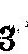3
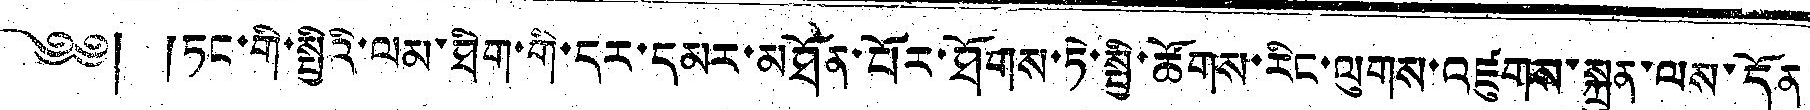༄༅། །ཏང་གི་སྤྱིའི་ལམ་ཐིག་གི་དར་དམར་མཐོན་པོར་ཐོགས་ཏེ་སྤྱི་ཚོགས་རིང་ལུགས་འཛུགས་སྐྲུན་ལས་དོན
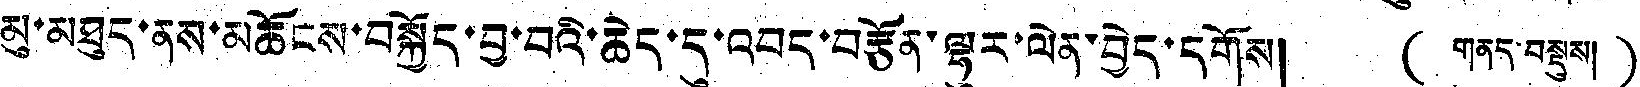མུ་མཐུད་ནས་མཆོངས་བསྐྱོད་བྱ་བའི་ཆེད་དུ་འབད་བརྩོན་ལྷུར་ལེན་བྱེད་དགོས། ( གནད་བསྡུས། )
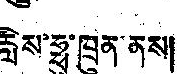རླིས་ཧྥུ་ཁྲུན་ནས།
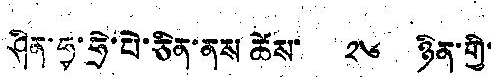ཤིན་ཧྭ་ཧྲེ་པེ་ཅིན་ནས ཚེས་ ༢༦ ཉིན་གྱི་
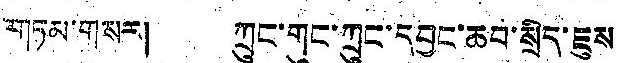གཏམ་གསར། ཀྲུང་གུང་ཀྲུང་དབྱང་ཆབ་སྲིད་ཇུས
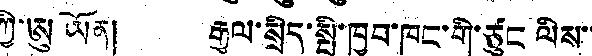ཀྱི་ཨུ ཡོན། རྒྱལ་སྲིད་སྤྱི་ཁྱབ་ཁང་གི་ཙུང ལིས་་
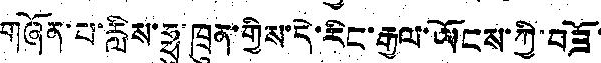གཞོན་པ་རླིས་ཧྥུ་ཁྲུན་གྱིས་དེ་རིང་རྒྱལ་ཡོངས་ཀྱི་བཟོ་
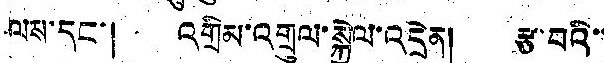ལས་དང་། འགྲིམ་འགྲུལ་སྐྱེལ་འདྲེན། རྩ་བའི་་
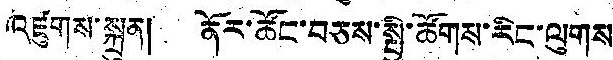འཛུགས་སྐྲུན། ནོར་ཚོང་བཅས་སྤྱི་ཚོགས་རིང་ལུགས
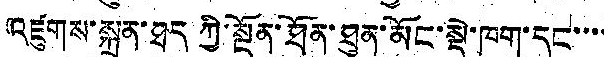འཛུགས་སྐྲུན་ཐད ཀྱི་སྔོན་ཐོན་ཐུན་མོང་སྡེ་ཁག་དང་་་་
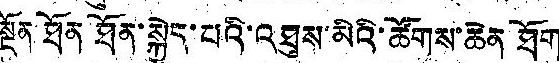སྔོན ཐོན ཐོན་སྐྱེད་པའི་འཐུས་མིའི་ཚོགས་ཆེན ཐོག
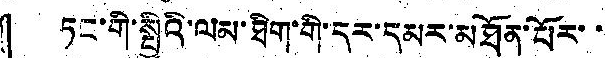「 ཏང་གི་སྤྱིའི་ལམ་ཐིག་གི་དར་དམར་མཐོན་པོར་་
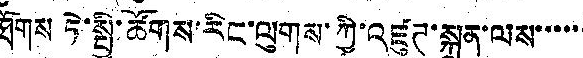ཐོགས ཏེ་སྤྱི་ཚོགས་རིང་ལུགས་ཀྱི་འཛུཊ་སྐྲུན་ལས་་་་་་
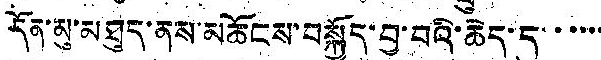དོན་མུ་མཐུན་ནས་མཆོངས་བསྐྱོད་བྱ་བའི་ཆེད་དུ་་་་་་
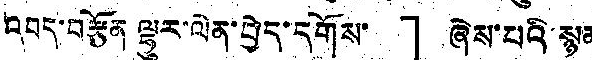འབད་བརྩོན ལྷུར་ལེན་བྱེད་དགོས་ 」 ཞེས་པའི སྙན
